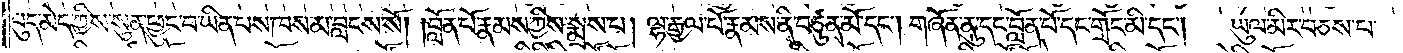བུད་མེད་ཀྱིས་སུན་ཕྱུང་བ་ཡིན་པས་ཁས་མ་བླངས་སོ། །བློན་པོ་རྣམས་ཀྱིས་སྨྲས་པ། ལྷ་རྒྱལ་པོ་རྣམས་ནི་བཙུན་མོ་དང༌། གཞོན་ནུ་དང་བློན་པོ་དང་གྲོང་མི་དང༌།   ཡུལ་མིར་བཅས་པ་
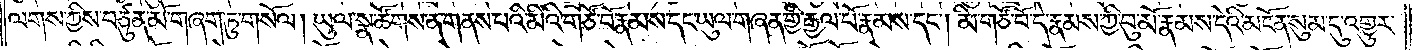ལགས་ཀྱིས་བཙུན་མོ་གཞག་ཏུ་གསོལ། ཡུལ་སྣ་ཚོགས་ན་གནས་པའི་མིའི་གཙོ་བོ་རྣམས་དང་ཡུལ་གཞན་གྱི་རྒྱལ་པོ་རྣམས་དང༌། མི་གཙོ་བོ་དེ་རྣམས་ཀྱི་བུ་མོ་རྣམས་དེའི་མངོན་སུམ་དུ་འགྱུར་
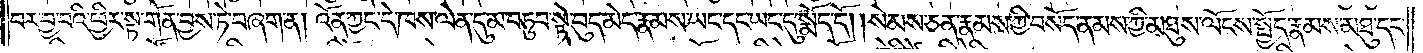བར་བྱ་བའི་ཕྱིར་སྟ་གོན་བྱས་ཏེ་བཞག་ན། འོན་ཀྱང་དེ་ཁས་ལེན་དུ་མ་བཏུབ་སྟེ་བུད་མེད་རྣམས་ཡང་དང་ཡང་དུ་སྨོད་དོ། །སེམས་ཅན་རྣམས་ཀྱི་བསོད་ནམས་ཀྱི་མཐུས་ལོངས་སྤྱོད་རྣམས་མཐུ་དང་
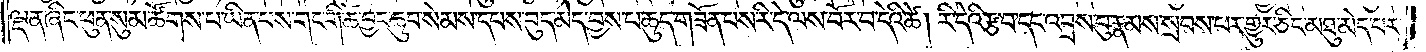ལྡན་ཞིང་ཕུན་སུམ་ཚོགས་པ་ཡིན་པས་གང་གི་ཚེ་བྱང་ཆུབ་སེམས་དཔས་བུད་མེད་བྱས་པ་ཆུད་གཟོན་པས་རི་དེ་ལས་བོར་བ་དེའི་ཚེ། རི་དེའི་རྩ་བ་དང་འབྲས་བུ་རྣམས་སྲབས་པར་གྱུར་ཅིང་མཐུ་མེད་པ་
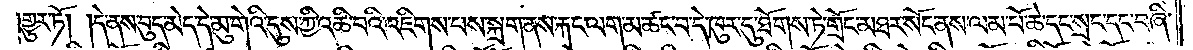།གྱུར་ཏོ། །དེ་ནས་བུད་མེད་དེ་མུ་གེའི་དུས་ཀྱི་འཆི་བའི་འཇིགས་པས་སྐྲག་ནས་རྐང་ལག་མ་ཚང་བ་དེ་ཁུར་དུ་ཐོགས་ཏེ་གྲོང་མཐར་སོང་ནས་ལམ་པོ་ཆེ་དང་སྲང་དང་བཞི་
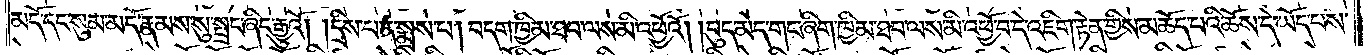མདོ་དང་སུམ་མདོ་རྣམས་སུ་སྤྲང་ཞིང་རྒྱུའོ། །དྲིས་པ་ན་སྨྲས་པ། བདག་ཁྱིམ་ཐབ་ལས་མི་འཕྱོའོ། །བུད་མེད་གང་ཞིག་ཁྱིམ་ཐབ་ལས་མི་འཕྱོ་བ་དེ་འཇིག་རྟེན་གྱིས་མཆོད་པའི་ཆོས་དེ་ཡོད་པས་
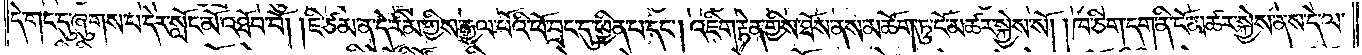དེ་གང་དུ་ཞུགས་པ་དེར་སློང་མོ་འཐོབ་བོ། །ཇི་ཙམ་ན་དེ་རིམ་གྱིས་རྒྱལ་པོའི་ཕོ་བྲང་དུ་ཕྱིན་པ་དང༌། འཇིག་རྟེན་གྱིས་ཐོས་ནས་མཆོག་ཏུ་ངོ་མཚར་སྐྱེས་སོ། །ཁ་ཅིག་དག་ནི་ངོ་མཚར་སྐྱེས་ནས་དེ་ལ་
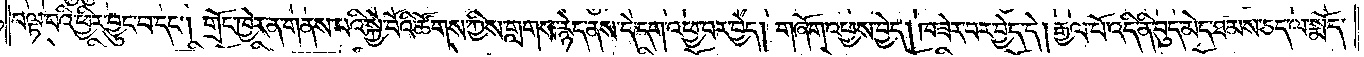བལྟ་བའི་ཕྱིར་བྱུང་བ་དང༌། གྲོང་ཁྱེར་ན་གནས་པའི་སྐྱེ་བོའི་ཚོགས་ཀྱིས་གླགས་རྙེད་ནས་དེ་དག་འཕྱ་བར་བྱེད། གཞོག་འཕྱས་བྱེད། ཁ་ཟེར་བར་བྱེད་དེ། རྒྱལ་པོ་འདི་ནི་བུད་མེད་ཐམས་ཅད་ལ་སྨོད་
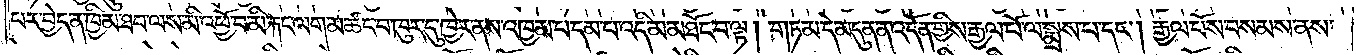པར་བྱེད་ན་ཁྱིམ་ཐབ་ལས་མི་འཕྱོ་བ་མི་རྐང་ལག་མ་ཚང་བ་ཁུར་དུ་ཁྱེར་ནས་འཁྱམ་པ་དམ་པ་འདི་མ་མཐོང་བ་ལྟ། གཏམ་དེ་མདུན་ན་འདོན་གྱིས་རྒྱལ་པོ་ལ་སྨྲས་པ་དང༌། རྒྱལ་པོས་བསམས་ནས་
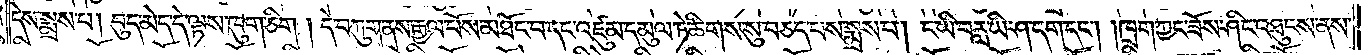དེས་སྨྲས་པ། བུད་མེད་དེ་ལྟས་ཁུག་ཅིག །དེ་བཀུག་ནས་རྒྱལ་པོས་མཐོང་བ་དང་འཛུམ་དམུལ་ཏེ་ཚིགས་སུ་བཅད་པས་སྨྲས་པ། ང་ཡི་བརླ་ཡི་ཤ་དག་དང༌། །ཁྲག་ཀྱང་ཟོས་ཤིང་འཐུངས་ནས་
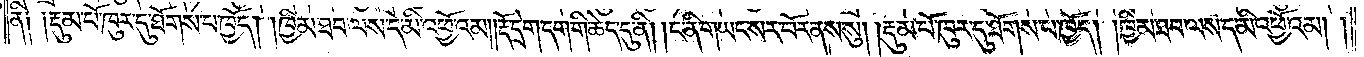ནི། །རྡུམ་པོ་ཁུར་དུ་ཐོགས་པ་ཁྱོད། །ཁྱིམ་ཐབ་ལས་དེ་མི་འཕྱོ་འམ། །རྡོ་དྲེག་དག་གི་ཆེད་དུ་ནི། །ང་ནི་གཡང་སར་ཕོར་ནས་སུ། །རྡུམ་པོ་ཁུར་དུ་ཐོགས་པ་ཁྱོད། །ཁྱིམ་ཐབ་ལས་དེ་མི་འཕྱོའམ། །
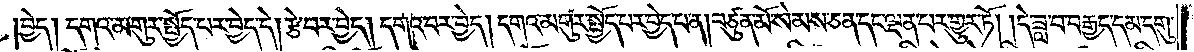བྱེད། དགའ་མགུར་སྤྱོད་པར་བྱེད་དེ། རྩེ་བར་བྱེད། དགའ་བར་བྱེད། དགའ་མགུར་སྤྱོད་པར་བྱེད་པ་ན། བཙུན་མོ་སེམས་ཅན་དང་ལྡན་པར་གྱུར་ཏོ། །དེ་ཟླ་བ་བརྒྱད་དམ་དགུ་
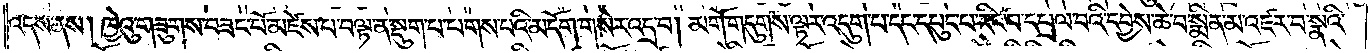འདས་ནས། ཁྱེའུ་གཟུགས་བཟང་པོ་མཛེས་པ་བལྟ་ན་སྡུག་པ་ཕགས་པའི་མདོག་གསེར་འདྲ་བ། མགོ་གདུགས་ལྟར་འདུག་པ་དང་དཔུང་བ་རིང་བ་དཔྲལ་བའི་དབྱེས་ཆེ་བ་སྨིན་མ་འཛར་བ་སྣའི་
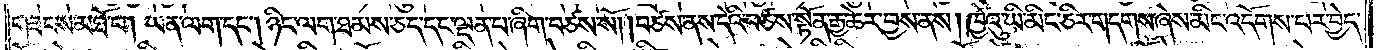གཟངས་མཐོ་བ། ཡན་ལག་དང༌། ཉིང་ལག་ཐམས་ཅད་དང་ལྡན་པ་ཞིག་བཙས་སོ། །བཙས་ནས་དེའི་བཙས་སྟོན་རྒྱ་ཆེར་བྱས་ནས། ཁྱེའུ་ཡི་མིང་ཅིར་གདགས་ཞེས་མིང་འདོགས་པར་བྱེད་
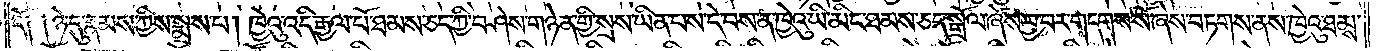དོ། །ཉེ་དུ་རྣམས་ཀྱིས་སྨྲས་པ། ཁྱེའུ་འདི་རྒྱལ་པོ་ཐམས་ཅད་ཀྱི་བཤེས་གཉེན་གྱི་སྲས་ཡིན་པས་དེ་བས་ན་ཁྱེའུ་ཡི་མིང་ཐམས་ཅད་སྒྲོལ་ཞེས་བྱ་བར་གདགས་སོ་ཞེས་བཏགས་ནས་ཁྱེའུ་ཐམས་
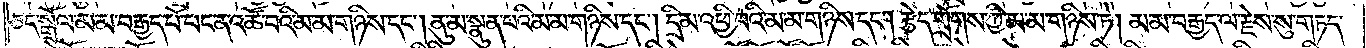ཅད་སྒྲོལ་མ་མ་བརྒྱད་པོ་པང་ན་འཚོ་བའི་མ་མ་གཉིས་དང༌། ནུ་མ་སྣུན་པའི་མ་མ་གཉིས་དང༌། དྲི་མ་འཕྱི་བའི་མ་མ་གཉིས་དང༌། རྩེད་གྲོགས་ཀྱི་མ་མ་གཉིས་ཏེ། མ་མ་བརྒྱད་ལ་རྗེས་སུ་གཏད་
